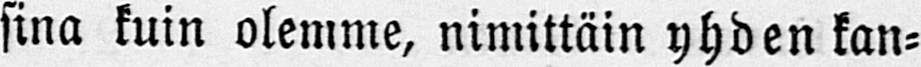sina kuin olemme, nimittäin yhden kan-
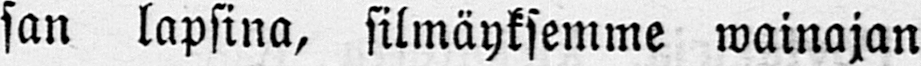san lapsina, silmäyksemme wainajan
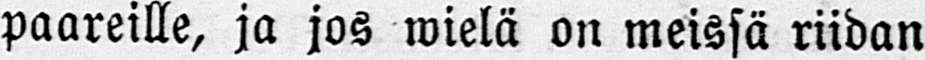paareille, ja jos wielä on meissä riidan
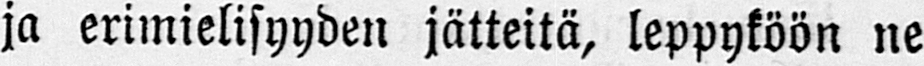ja erimielisyyden jätteitä, leppyköön ne
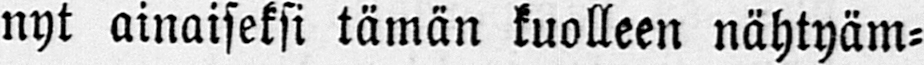nyt ainaiseksi tämän kuolleen nähtyäm-
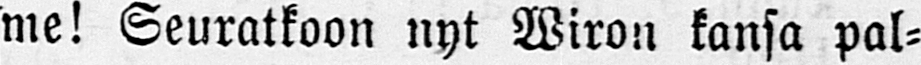me! Seuratkoon nyt Wiron kansa pal-
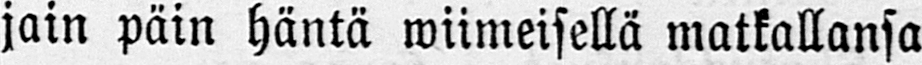jain päin häntä wiimeisellä matkallansa
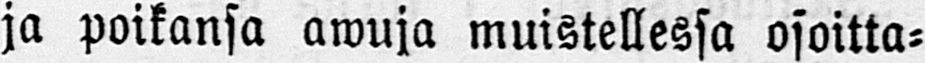ja poikansa awuja muistellessa osoitta-
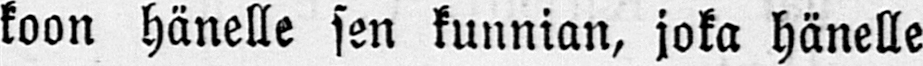koon hänelle sen kunnian, joka hänelle
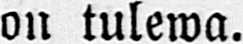on tulewa.
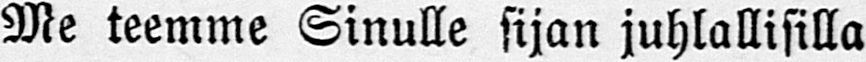Me teemme Sinulle sijan juhlallisilla
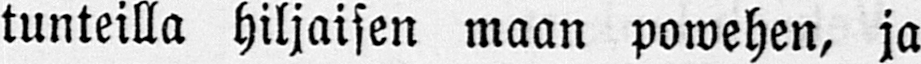tunteilla hiljaisen maan powehen, ja
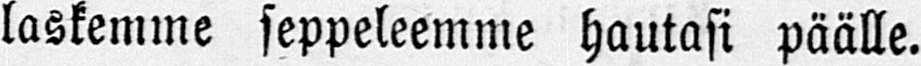laskemme seppeleemme hautasi päälle.
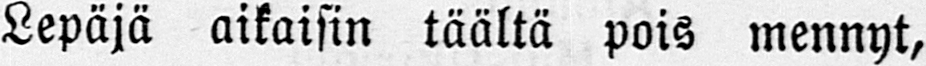Lepäjä aikaisin täältä pois mennyt,
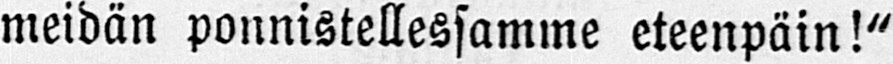meidän ponnistellessamme eteenpäin!"
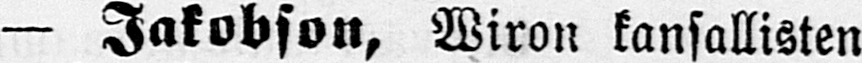— Jakobson, Wiron kansallisten
